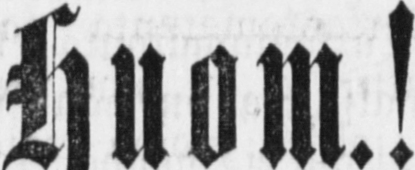Huom.!
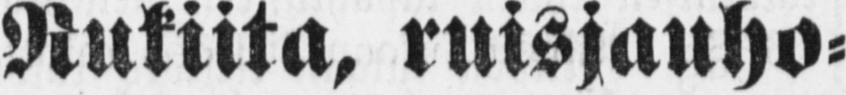Rukiita, ruisjauho-
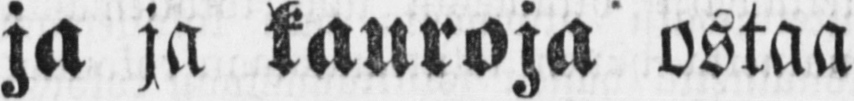ja ja kauroja ostaa
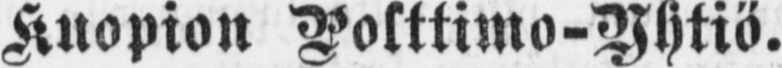Kuopion Polttimo-Yhtiö.
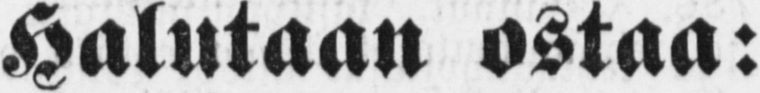Halutaan ostaa:
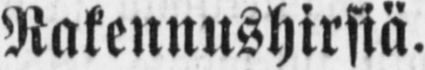Rakennushirsiä.
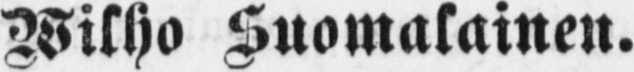Wilho Suomalainen.
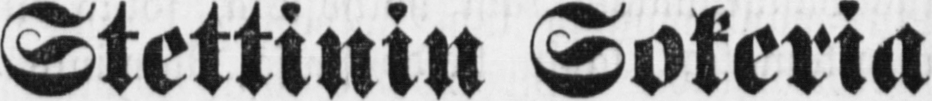Stettinin Sokeria
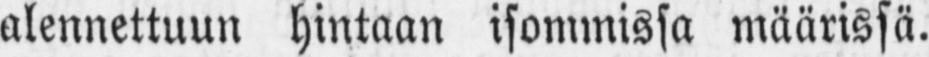alennettuun hintaan isommissa määrissä.
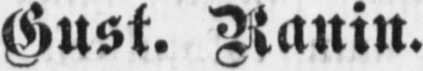Gust. Ranin.
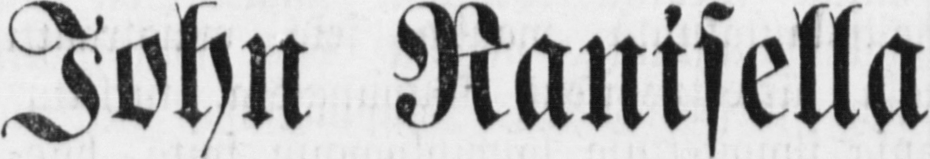John Ranisella
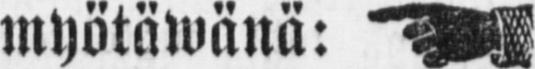myötäwänä:
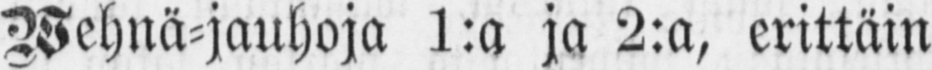Wehnä-jauhoja 1:a ja 2:a, erittäin
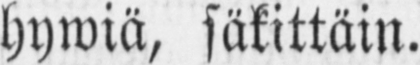hywiä, säkittäin.
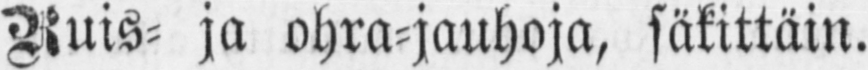Ruis- ja ohra-jauhoja, säkittäin.
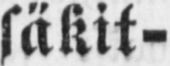läkit-
